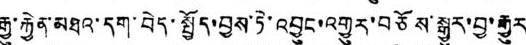རྒྱུ་རྐྱེན་མཐའ་དག་བེད་སྤྱོད་བྱས་ཏེ་འབྱུང་འགྱུར་བཅོས་སྒྱུར་བྱ་རྒྱུར
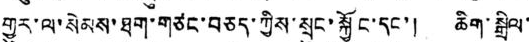གྱུར་ལ་སེམས་ཐག་གཙང་བཅད་ཀྱིས་སྲུང་སྐྱོང་དང་། ཆིག་སྒྲིལ་
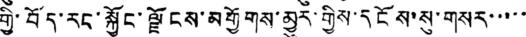གྱི་བོད་རང་སྐྱོང་ལྗོངས་མགྱོགས་མྱུར་གྱིས་དངོས་སུ་གསར་་་་་
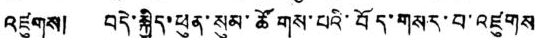འཛུགས། བདེ་སྐྱིད་ཕུན་སུམ་ཚོགས་པའི་བོད་གསར་བ་འཛུགས
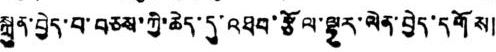སྐྲུན་བྱེད་པ་བཅས་ཀྱི་ཆེད་དུ་འཐབ་རྩོལ་ལྷུར་ལེན་བྱེད་དགོས།
